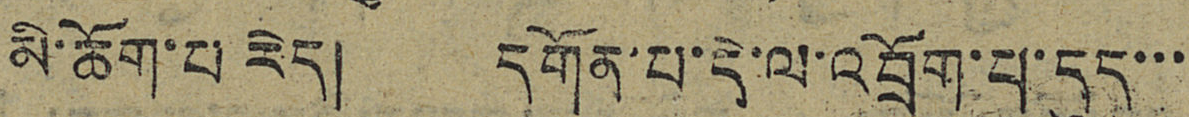མི་ཆོག་པ་རེད། དགོན་པ་དེ་ལ་འབྲོག་པ་དུད་་་
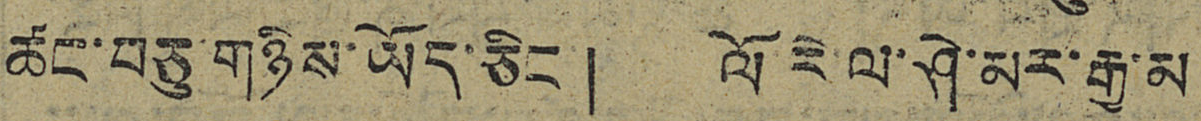ཚང་བཅུ་གཉིས་ཡོད་ཅིང་། ལོ རེ་ལ་ཤེ་མར་རྒྱ་མ
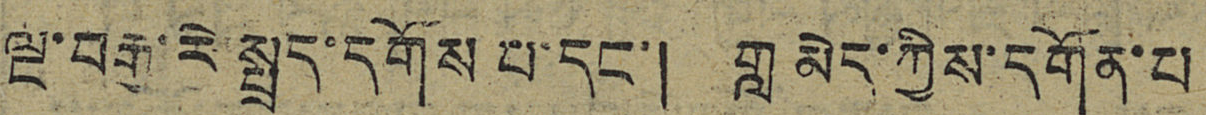ལྔ་བརྒྱ་རེ་སྤྲད་དགོས པ་དང་། གླ མེད་ཀྱིས་དགོན་པ
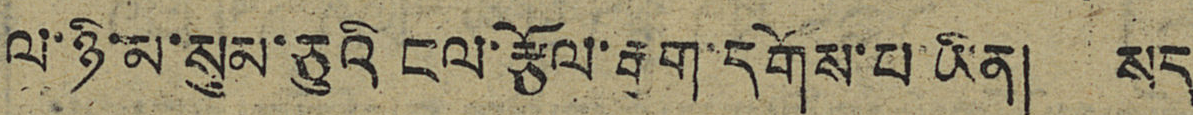ལ་ཉི་མ་སུམ་ཅུའི ངལ་རྩོལ་རྒྱག་དགོས་པ་ཡིན། སད
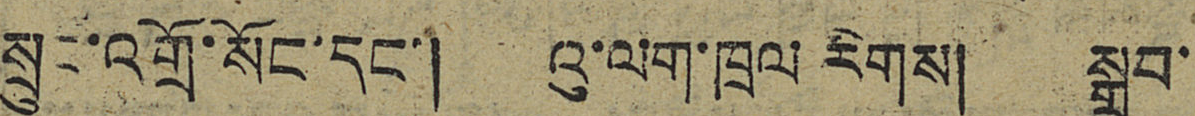སྲུང་འགྲོ་སོང་དང་། འུ་ལག་ཁྲལ རིགས། སྒྲུབ་
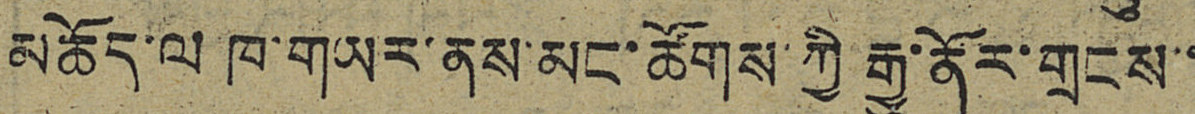མཆོད་ལ ཁ་གཡར་ནས་མང་ཚོགས་ཀྱི རྒྱུ་ནོར་གྲངས་་
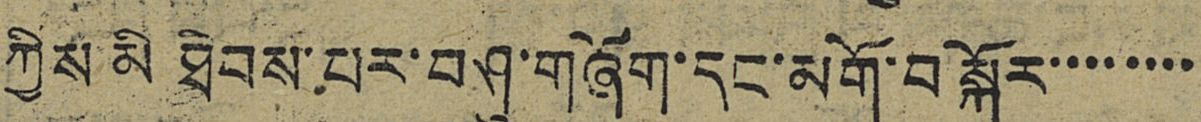ཀྱིས་མི ཐེབས་པར་བཤུ་གཞོག་དང་མགོ་བསྐོར་་་་་་་་
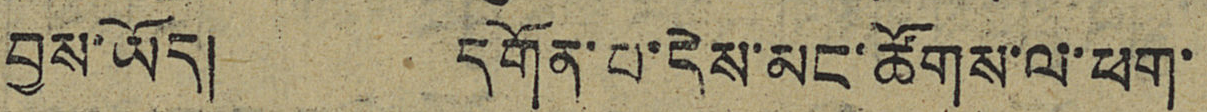བྱས་ཡོད། དགོན་པ་དེས་མང་ཚོགས་ལ་ཕག་
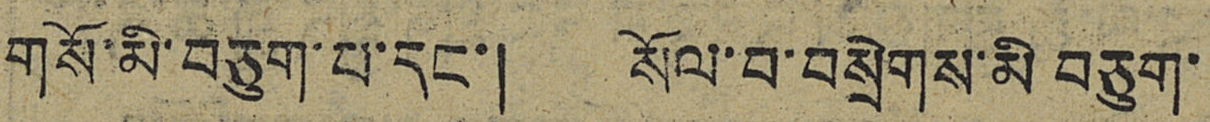གསོ་མི་བཅུག་པ་དང་། སོལ་བ་བསྲེགས་མི བཅུག་
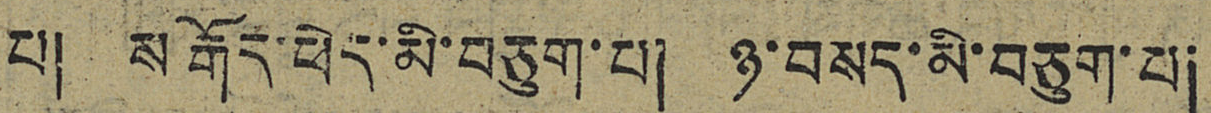པ། ས རྒོད་ཕེད་མི་བཅུག་པ། ཉ་བསད་མི་བཅུག་པ།
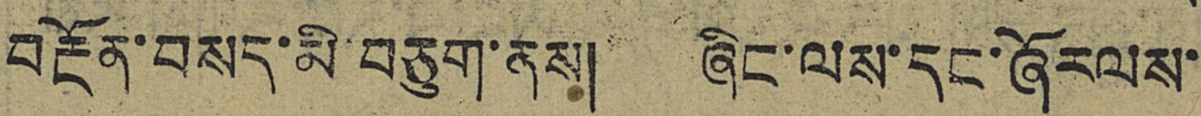བརྔོན་བསད་མི་བཅུག་ནས། ཞིང་ལས་དང་ཞོརལས་
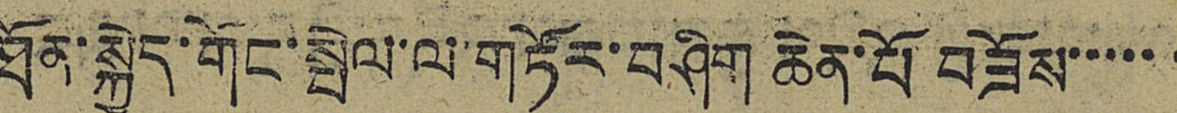ཐོན་སྐྱེད་གོང་སྤེལ་ལ་གཏོར་བཤིག་ཆེན་པོ་བཟོས་་་་་་
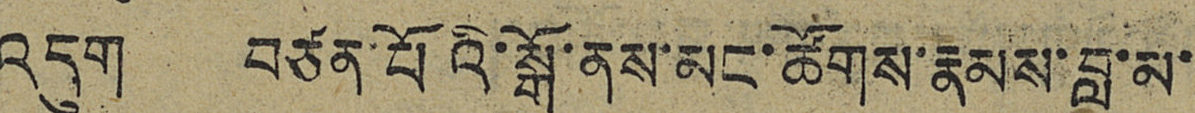འདུག བཙན་པོའི་སྒོ་ནས་མང་ཚོགས་རྣམས་བླ་མ་
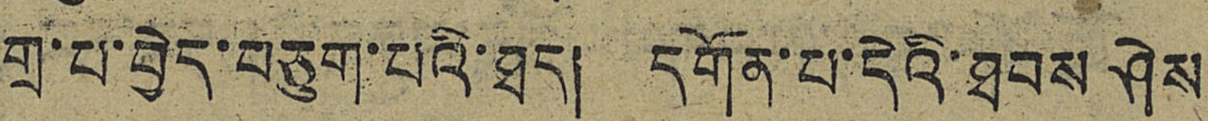གྲ་པ་བྱེད་བཅུག་པའི་ཐད། དགོན་པ་དེའི་ཐབས་ཤེས
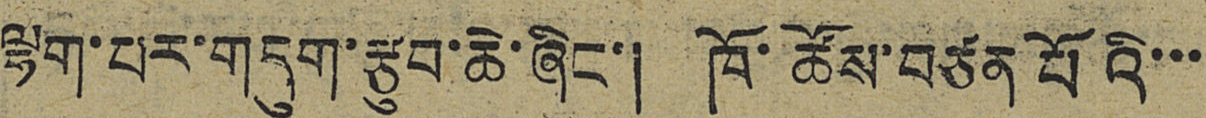ལྷག་པར་གདུག་རྩུབ་ཆེ་ཞིང་། ཁོ་ཚོས་བཙན་པོའི་་་
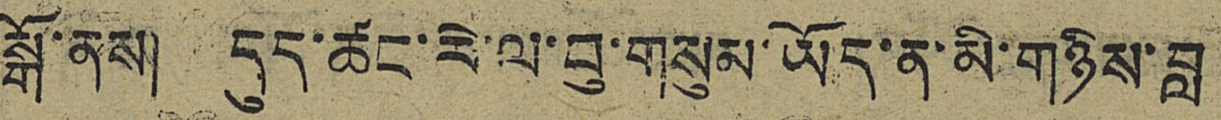སྒོ་ནས། དུད་ཚང་རེ་ལ་བུ་གསུམ་ཡོད་ན་མི་གཉིས་བླ
